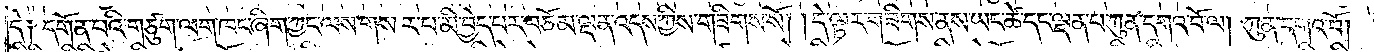དེ༑ དགོན་པའི་གཙུག་ལག་ཁང་ཞིག་ཀྱང་ལས་གསར་པ་མི་བྱེད་པར་བཅོམ་ལྡན་འདས་ཀྱིས་གཟིགས་སོ། །དེ་ལྟར་གཟིགས་ནས་ཡང་ཚེ་དང་ལྡན་པ་ཀུན་དགའ་བོ་ལ། ཀུན་དགའ་བོ།
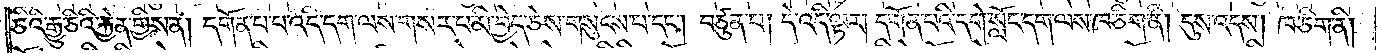ཅིའི་རྒྱུ་ཅིའི་རྐྱེན་གྱིས་ན། དགོན་པ་པ་འདི་དག་ལས་གསར་པ་མི་བྱེད་ཅེས་གསུངས་པ་དང༌། བཙུན་པ། དེ་འདི་ལྟར། དགོན་པའི་དགེ་སློང་དག་ལས་ཁ་ཅིག་ནི། དུས་འདས། ཁ་ཅིག་ནི།
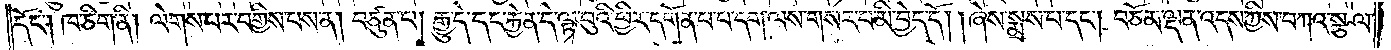དོང༌། ཁ་ཅིག་ནི། ལེགས་པར་བགྱིས་པས་ན། བཙུན་པ། རྒྱུ་དེ་དང་རྐྱེན་དེ་ལྟ་བུའི་ཕྱིར་དགོན་པ་པ་དག་ལས་གསར་པ་མི་བྱེད་དོ། །ཞེས་སྨྲས་པ་དང༌། བཅོམ་ལྡན་འདས་ཀྱིས་བཀའ་སྩལ་
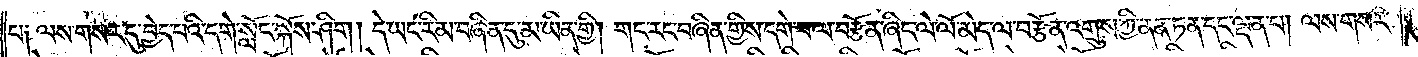པ༑ ལས་གསར་དུ་བྱེད་པའི་དགེ་སློང་སྐོས་ཤིག། དེ་ཡང་རིམ་བཞིན་དུ་མ་ཡིན་གྱི། གང་རང་བཞིན་གྱིས་དགེ་བ་ལ་བརྩོན་ཞིང་ལེ་ལོ་མེད་ལ་བརྩོན་འགྲུས་ཀྱི་ནན་ཏན་དང་ལྡན་པ། ལས་གསར་
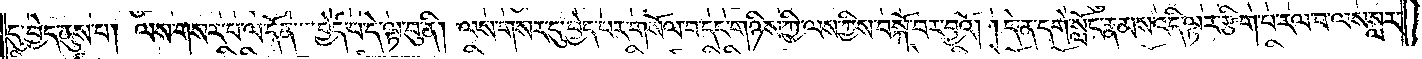དུ་བྱེད་ནུས་པ། ལས་གསར་པ་ལ་དོན་བྱེད་པ་དེ་ལྟ་བུ་ནི། ལས་གསར་དུ་བྱེད་པར་གསོལ་བ་དང་གཉིས་ཀྱི་ལས་ཀྱིས་བསྐོ་བར་བྱའོ། །དེ་ན་དགེ་སློང་རྣམས་འདི་ལྟར་རྩིག་པ་རལ་བ་ལས་སླར་
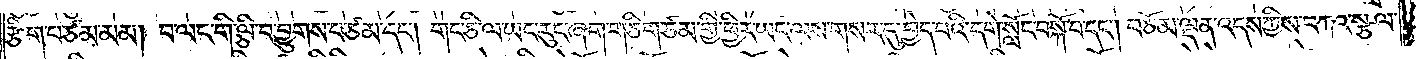རྩིག་པ་ཙམ་མམ། བ་ལང་གི་ལྕི་བ་བྱུགས་བ་ཙམ་དང༌། གང་ཅི་ལ་ཡང་རུང་ཞག་གཅིག་ཙམ་གྱི་ཕྱིར་ཡང་ལས་གསར་དུ་བྱེད་པའི་དགེ་སློང་བསྐོ་བ་དང༌། བཅོམ་ལྡན་འདས་ཀྱིས་བཀའ་སྩལ་
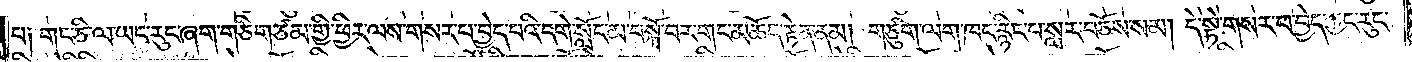པ༑ གང་ཅི་ལ་ཡང་རུང་ཞག་གཅིག་ཙམ་གྱི་ཕྱིར་ལས་གསར་པ་བྱེད་པའི་དགེ་སློང་མ་བསྐོ་བར་གང་མཆོད་རྟེན་ནམ། གཙུག་ལག་ཁང་རྙིང་པ་སླར་བཅོས་སམ། དེ་སྟེ་གསར་པ་བྱེད་ཀྱང་རུང་
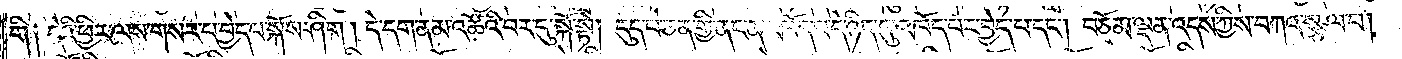གི༑ དེའི་ཕྱིར་ལས་གསར་པ་བྱེད་པ་སྐོས་ཤིག། དེ་དག་ནམ་འཚོའི་བར་དུ་སྐོ་སྟེ། དུད་པ་ཅན་གྱི་ནང་ན་འཁོད་པ་དེ་ཉིད་དུ་འཁོད་པར་བྱེད་པ་དང༌། བཅོམ་ལྡན་འདས་ཀྱིས་བཀའ་སྩལ་པ།
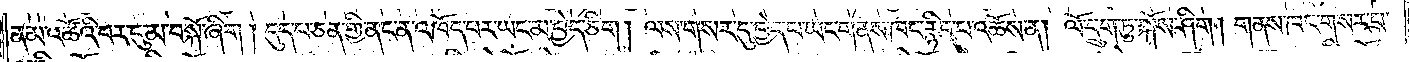ནམ་འཚོའི་བར་དུ་མ་བསྐོ་ཞིག། དུད་པ་ཅན་གྱི་ནང་ན་འཁོད་པར་ཡང་མ་བྱེད་ཅིག། ལས་གསར་དུ་བྱེད་པ་ཡང་གནས་ཁང་རྙིང་པ་འཆོས་ན། ལོ་དྲུག་ཏུ་སྐོས་ཤིག། གནས་ཁང་གསར་པ་
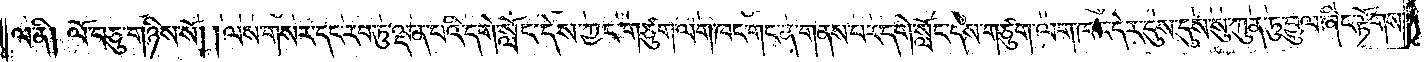ལ་ནི། ལོ་བཅུ་གཉིས་སོ། །ལས་གསར་དང་རབ་ཏུ་ལྡན་པའི་དགེ་སློང་དེས་ཀྱང་གཙུག་ལག་ཁང་གང་ན་གནས་པར་དགེ་སློང་དེས་གཙུག་ལག་ཁང་དེར་དུས་དུས་སུ་ཀུན་ཏུ་བྱུལ་ཞིང་རྟོགས་
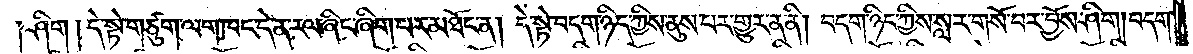ཤིག། དེ་སྟེ་གཙུག་ལག་ཁང་དེ་ན་རལ་ཞིང་ཞིག་པར་མཐོང་ན། དེ་སྟེ་བདག་ཉིད་ཀྱིས་ནུས་པར་གྱུར་ན་ནི། བདག་ཉིད་ཀྱིས་སླར་གསོ་བར་བྱོས་ཤིག། བདག་
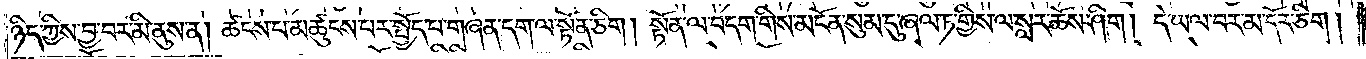ཉིད་ཀྱིས་བྱ་བར་མི་ནུས་ན། ཚངས་པ་མཚུངས་པར་སྤྱོད་པ་གཞན་དག་ལ་སྟོན་ཅིག། སྟོན་ལ་བདག་གིས་མངོན་སུམ་དུ་ཞལ་ཏ་གྱིས་ལ་སླར་ཆོས་ཤིག། དེ་ཡལ་བར་མ་དོར་ཅིག།
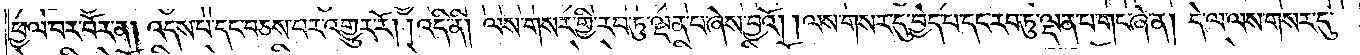ཕྱལ་བར་བོར་ན། འདས་པ་དང་བཅས་པར་འགྱུར་རོ། །འདི་ནི། ལས་གསར་གྱི་རབ་ཏུ་ལྡན་པ་ཞེས་བྱའོ། །ལས་གསར་དུ་བྱེད་པ་དང་རབ་ཏུ་ལྡན་པ་གང་ཞེ་ན། དེ་ལ་ལས་གསར་དུ་
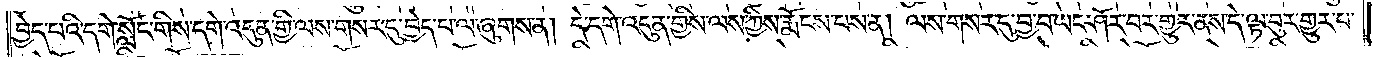བྱེད་པའི་དགེ་སློང་གིས་དགེ་འདུན་གྱི་ལས་གསར་དུ་བྱེད་པ་ལ་ཞུགས་ན། དེ་དགེ་འདུན་གྱིས་ལས་ཀྱིས་རྨོངས་པས་ན། ལས་གསར་དུ་བྱ་བ་ཡང་ཤོར་བར་གྱུར་ནས་དེ་ལྟ་བུར་གྱུར་པ་
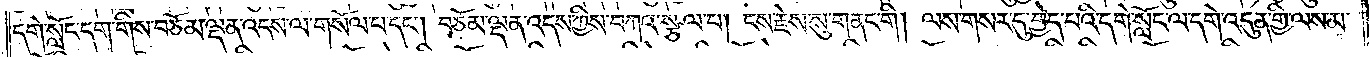དགེ་སློང་དག་གིས་བཅོམ་ལྡན་འདས་ལ་གསོལ་པ་དང༌། བཅོམ་ལྡན་འདས་ཀྱིས་བཀའ་སྩལ་པ། ངས་རྗེས་སུ་གནང་གི། ལས་གསར་དུ་བྱེད་པའི་དགེ་སློང་ལ་དགེ་འདུན་གྱི་ལས་མ་
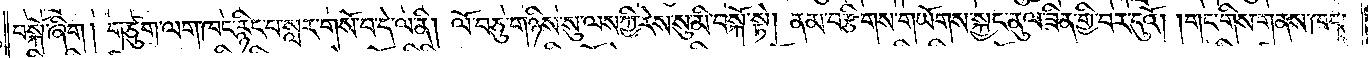བསྐོ་ཞིག། གཙུག་ལག་ཁང་རྙིང་པ་སླར་གསོ་བ་དེ་ལ་ནི། ལོ་བཅུ་གཉིས་སུ་ལས་ཀྱི་རེས་སུ་མི་བསྐོ་སྟེ། ནམ་བརྩིགས་གཡོགས་སྐྱང་ནུལ་ཟིན་གྱི་བར་དུའོ། །གང་གིས་གནས་ཁང་
